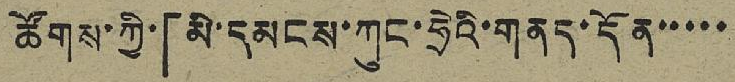ཚོགས་ཀྱི་「མི་དམངས་ཀུང་ཧྲེའི་གནས་དོན་་་་་
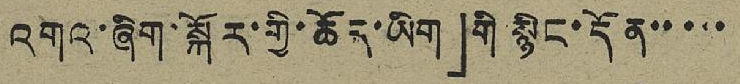འགའ་ཞིག་སྐོར་གྱི་ཆོད་ཡིག་」གི་སྙིང་དོན་་་་་
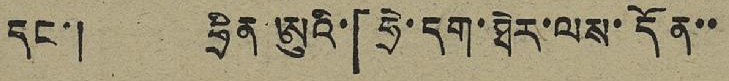དང་། ཧྲིན་ཨུའི་「ཧྲེ་དག་ཐེར་ལས་དོན་་
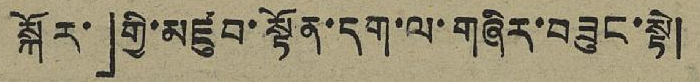སྐོར་」གྱི་མཛུབ་སྟོན་དག་ལ་གཞིར་བཟུང་སྟེ།
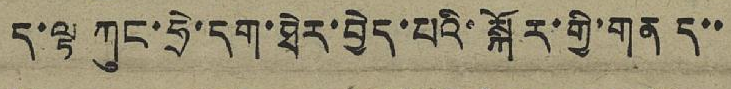ད་ལྟ་ཀུང་ཧྲེ་དག་ཐེར་བྱེད་པའི་སྐོར་གྱི་གནད་་
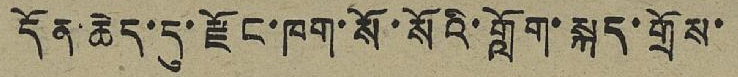དོན་ཆེད་དུ་རྫོང་ཁག་སོ་སོའི་གློག་སྐད་གྲོས་
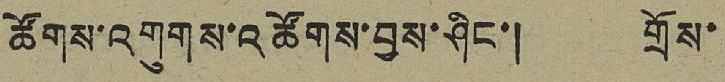ཚོགས་འགུགས་འཚོགས་བྱས་ཤིང་། གྲོས་
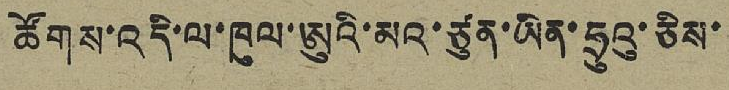ཚོགས་འདི་ལ་ཁུལ་ཨུའི་མའ་ཙུན་ཡིན་ཧྲུའུ་ཅིས་
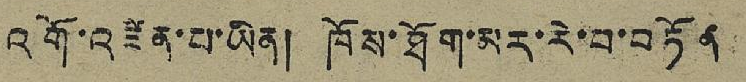འགོ་འཛིན་བ་ཡིན། ཁོས་ཐོག་མར་རེ་བ་བཏོན
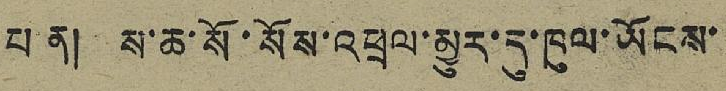པན། ས་ཆ་སོ་སོས་འཕྲལ་མྱུར་དུ་ཁུལ་ཡོངས་
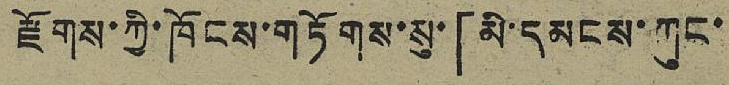རྫོགས་ཀྱི་ཁོངས་གཏོགས་སུ་「མི་དམངས་ཀུང་
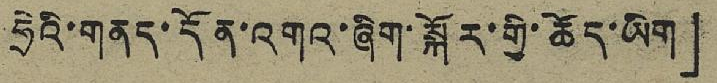ཧྲེའི་གནད་དོན་འགའ་ཞིག་སྐོར་གྱི་ཆོད་ཡིག」
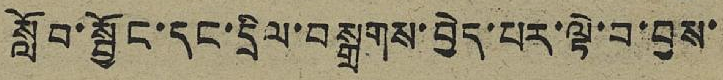སློབ་སྦྱོང་དང་དྲིལ་བསྒྲགས་བྱེད་པར་ལྟེ་བ་བྱས་
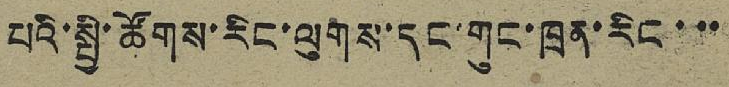པའི་སྤྱི་ཚོགས་རིང་ལུགས་དང་གུང་ཁྲན་རིང་་་
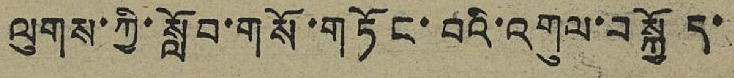ལུགས་ཀྱི་སློབ་གསོ་གཏོང་བའི་འགུལ་བསྐྱོད་
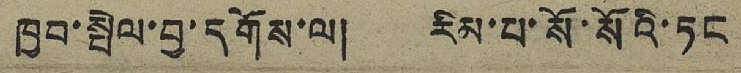ཁྱབ་སྤེལ་བྱ་དགོས་ལ། རིམ་པ་སོ་སོའི་ཏང
